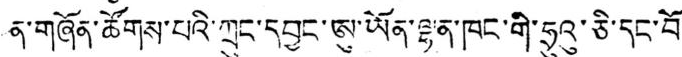ན་གཞོན་ཚོགས་པའི་ཀྲུང་དབྱང་ཨུ་ཡོན་ལྷན་ཁང་གི་ཧྲུའུ་ཅི་དང་བོ་
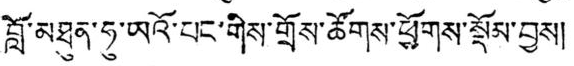བློ་མཐུན་ཧུ་ཡའོ་པང་གིས་གྲོས་ཚོགས་ཕྱོགས་སྡོམ་བྱས།
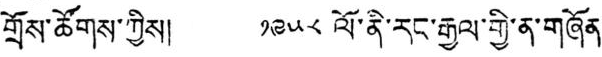གྲོས་ཚོགས་ཀྱིས། ༡༩༥༨ ལོ་ནི་རང་རྒྱལ་གྱི་ན་གཞོན་
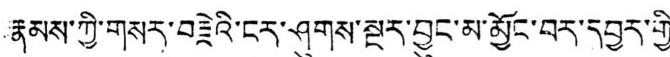རྣམས་ཀྱི་གསར་བརྗེའི་ངར་ཤུགས་སྔར་བྱུང་མ་མྱོང་བར་དབྱར་གྱི་་
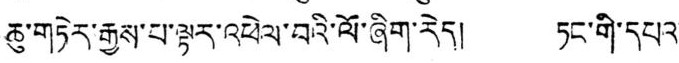ཆུ་གཏེར་རྒྱས་པ་ལྟར་འཕེལ་བའི་ལོ་ཞིག་རེད། ཏང་གི་དཔའ་
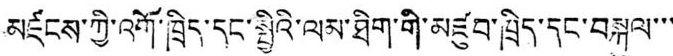མཛངས་ཀྱི་འགོ་ཁྲིད་དང་སྤྱིའི་ལམ་ཐིག་གི་མཛུབ་ཁྲིད་དང་བསྐུལ་་་་
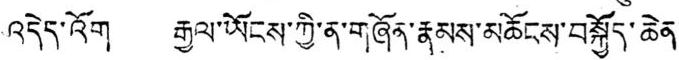འདེད་འོག རྒྱལ་ཡོངས་ཀྱི་ན་གཞོན་རྣམས་མཆོངས་བསྐྱོད་ཆེན་
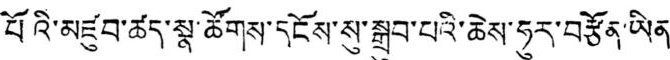པོའི་མཛུབ་ཚད་སྣ་ཚོགས་དངོས་སུ་སྒྲུབ་པའི་ཆེས་ཧུར་བརྩོན་ཡིན་
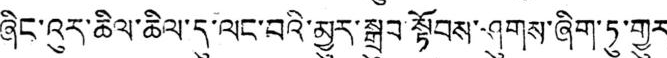ཞིང་འུར་ཆིལ་ཆིལ་དུ་ལང་བའི་མྱུར་སྒྲུབ་སྟོབས་ཤུགས་ཞིག་ཏུ་གྱུར་
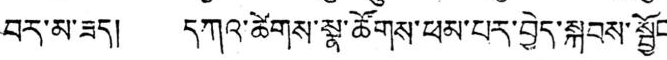བར་མ་ཟད། དཀའ་ཚེགས་སྣ་ཚོགས་ཕམ་པར་བྱེད་སྐབས་སྦྱོང་
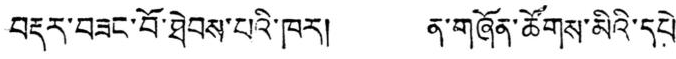བརྡར་བཟང་བོ་ཐེབས་པའི་ཁར། ན་གཞོན་ཚོགས་མིའི་དཔེ་
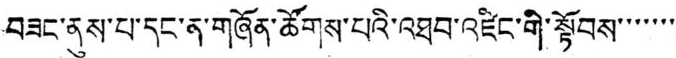བཟང་ནུས་པ་དང་ན་གཞོན་ཚོགས་པའི་འཐབ་འཛིང་གི་སྟོབས་་་་་་་་
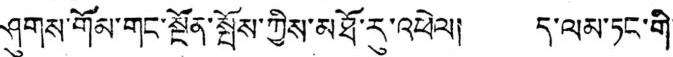ཤུགས་གོམ་གང་སྔོན་སྤོས་ཀྱིས་མཐོ་རུ་འཕེལ། ད་ལམ་ཏང་གི་
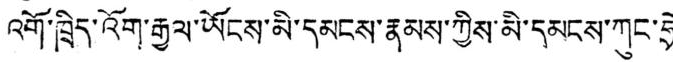འགོ་ཁྲིད་འོག་རྒྱལ་ཡོངས་མི་དམངས་རྣམས་ཀྱིས་མི་དམངས་ཀུང་ཧྲེ་
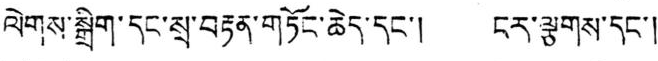ལེགས་སྒྲིག་དང་སྲ་བརྟན་གཏོང་ཆེད་དང་། ངར་ལྕགས་དང་།
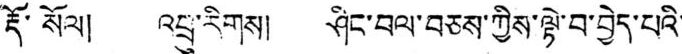རྡོ་སོལ། འབྲུ་རིགས། ཤིང་བལ་བཅས་ཀྱིས་ལྟེ་བ་བྱེད་པའི་
